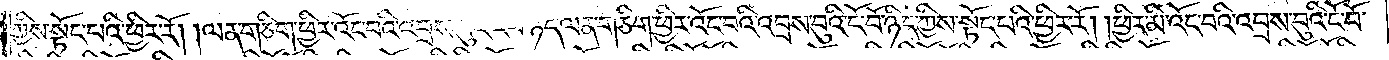ཀྱིས་སྟོང་པའི་ཕྱིར་རོ། །ལན་ཅིག་ཕྱིར་འོང་བའི་འབྲས་བུའི་ངོ་བོ་ཉིད་ལན་གཅིག་ཕྱིར་འོང་བའི་འབྲས་བུའི་ངོ་བོ་ཉིད་ཀྱིས་སྟོང་པའི་ཕྱིར་རོ། །ཕྱིར་མི་འོང་བའི་འབྲས་བུའི་ངོ་བོ་
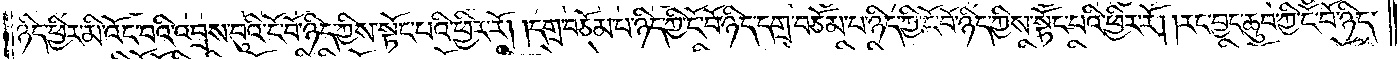ཉིད་ཕྱིར་མི་འོང་བའི་འབྲས་བུའི་ངོ་བོ་ཉིད་ཀྱིས་སྟོང་པའི་ཕྱིར་རོ། །དགྲ་བཅོམ་པ་ཉིད་ཀྱི་ངོ་བོ་ཉིད་དགྲ་བཅོམ་པ་ཉིད་ཀྱི་ངོ་བོ་ཉིད་ཀྱིས་སྟོང་པའི་ཕྱིར་རོ། །རང་བྱང་ཆུབ་ཀྱི་ངོ་བོ་ཉིད་
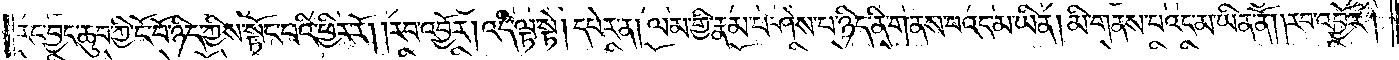རང་བྱང་ཆུབ་ཀྱི་ངོ་བོ་ཉིད་ཀྱིས་སྟོང་པའི་ཕྱིར་རོ། །རབ་འབྱོར། འདི་ལྟ་སྟེ། དཔེར་ན། ལམ་གྱི་རྣམ་པ་ཤེས་པ་ཉིད་ནི་གནས་པའང་མ་ཡིན། མི་གནས་པའང་མ་ཡིན་ནོ། །རབ་འབྱོར།
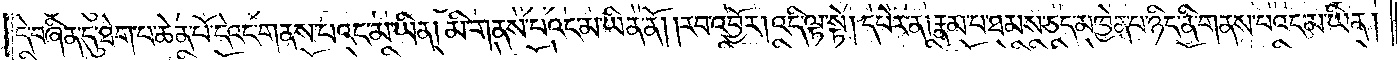དེ་བཞིན་དུ་ཐེག་པ་ཆེན་པོ་དེའང་གནས་པའང་མ་ཡིན། མི་གནས་པའང་མ་ཡིན་ནོ། །རབ་འབྱོར། འདི་ལྟ་སྟེ། དཔེར་ན། རྣམ་པ་ཐམས་ཅད་མཁྱེན་པ་ཉིད་ནི་གནས་པའང་མ་ཡིན།
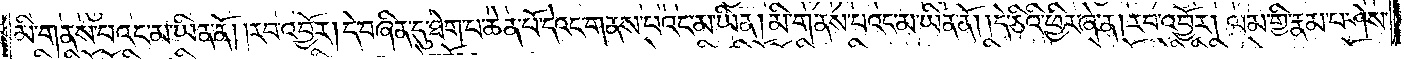མི་གནས་པའང་མ་ཡིན་ནོ། །རབ་འབྱོར། དེ་བཞིན་དུ་ཐེག་པ་ཆེན་པོ་དེའང་གནས་པའང་མ་ཡིན། མི་གནས་པའང་མ་ཡིན་ནོ། །དེ་ཅིའི་ཕྱིར་ཞེ་ན། རབ་འབྱོར། ལམ་གྱི་རྣམ་པ་ཤེས་
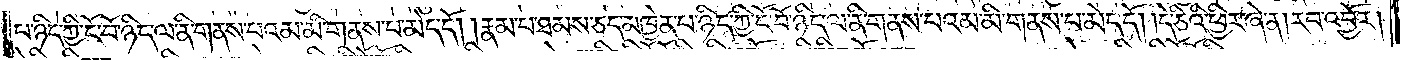པ་ཉིད་ཀྱི་ངོ་བོ་ཉིད་ལ་ནི་གནས་པའམ་མི་གནས་པ་མེད་དོ། །རྣམ་པ་ཐམས་ཅད་མཁྱེན་པ་ཉིད་ཀྱི་ངོ་བོ་ཉིད་ལ་ནི་གནས་པ་འམ་མི་གནས་པ་མེད་དོ། །དེ་ཅིའི་ཕྱིར་ཞེ་ན། རབ་འབྱོར།
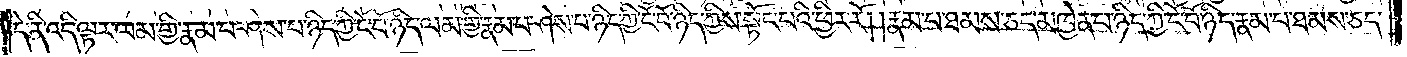དེ་ནི་འདི་ལྟར་ལམ་གྱི་རྣམ་པ་ཤེས་པ་ཉིད་ཀྱི་ངོ་བོ་ཉིད་ལམ་གྱི་རྣམ་པ་ཤེས་པ་ཉིད་ཀྱི་ངོ་བོ་ཉིད་ཀྱིས་སྟོང་པའི་ཕྱིར་རོ། །རྣམ་པ་ཐམས་ཅད་མཁྱེན་པ་ཉིད་ཀྱི་ངོ་བོ་ཉིད་རྣམ་པ་ཐམས་ཅད་
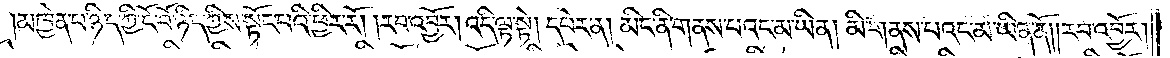མཁྱེན་པ་ཉིད་ཀྱི་ངོ་བོ་ཉིད་ཀྱིས་སྟོང་པའི་ཕྱིར་རོ། །རབ་འབྱོར། འདི་ལྟ་སྟེ། དཔེར་ན། མིང་ནི་གནས་པའང་མ་ཡིན། མི་གནས་པའང་མ་ཡིན་ནོ། །རབ་འབྱོར།
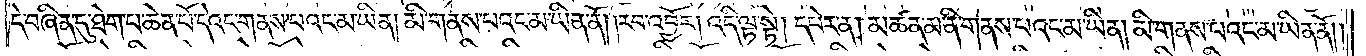དེ་བཞིན་དུ་ཐེག་པ་ཆེན་པོ་དེའང་གནས་པའང་མ་ཡིན། མི་གནས་པའང་མ་ཡིན་ནོ། །རབ་འབྱོར། འདི་ལྟ་སྟེ། དཔེར་ན། མཚན་མ་ནི་གནས་པའང་མ་ཡིན། མི་གནས་པའང་མ་ཡིན་ནོ། །
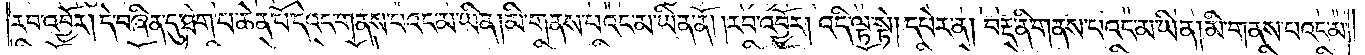རབ་འབྱོར། དེ་བཞིན་དུ་ཐེག་པ་ཆེན་པོ་དེའང་གནས་པའང་མ་ཡིན། མི་གནས་པའང་མ་ཡིན་ནོ། །རབ་འབྱོར། འདི་ལྟ་སྟེ། དཔེར་ན། བརྡ་ནི་གནས་པའང་མ་ཡིན། མི་གནས་པའང་མ་
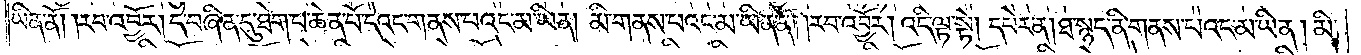ཡིན་ནོ། །རབ་འབྱོར། དེ་བཞིན་དུ་ཐེག་པ་ཆེན་པོ་དེའང་གནས་པའང་མ་ཡིན། མི་གནས་པའང་མ་ཡིན་ནོ། །རབ་འབྱོར། འདི་ལྟ་སྟེ། དཔེར་ན། ཐ་སྙད་ནི་གནས་པའང་མ་ཡིན། མི་
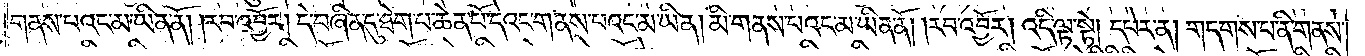གནས་པའང་མ་ཡིན་ནོ། །རབ་འབྱོར། དེ་བཞིན་དུ་ཐེག་པ་ཆེན་པོ་དེའང་གནས་པའང་མ་ཡིན། མི་གནས་པའང་མ་ཡིན་ནོ། རབ་འབྱོར། འདི་ལྟ་སྟེ། དཔེར་ན། གདགས་པ་ནི་གནས་
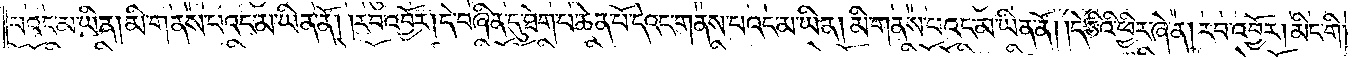པའང་མ་ཡིན། མི་གནས་པའང་མ་ཡིན་ནོ། །རབ་འབྱོར། དེ་བཞིན་དུ་ཐེག་པ་ཆེན་པོ་དེའང་གནས་པའང་མ་ཡིན། མི་གནས་པའང་མ་ཡིན་ནོ། །དེ་ཅིའི་ཕྱིར་ཞེ་ན། རབ་འབྱོར། མིང་གི་
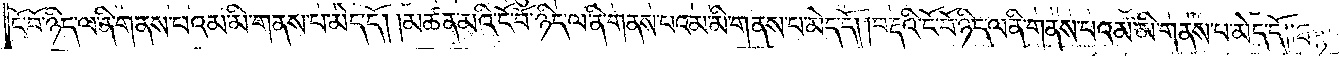ངོ་བོ་ཉིད་ལ་ནི་གནས་པ་འམ་མི་གནས་པ་མེད་དོ། །མཚན་མའི་ངོ་བོ་ཉིད་ལ་ནི་གནས་པ་འམ་མ་གནས་པ་མེད་དོ། །བརྡའི་ངོ་བོ་ཉོན་ལ་ནི་གནས་པ་འམ་མི་གནས་པ་མེད་དོ། །ཐ་སྙད་
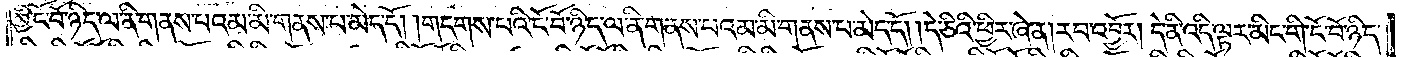ཀྱི་ངོ་བོ་ཉིད་ལ་ནི་གནས་པ་འམ་མི་གནས་པ་མེད་དོ། །གདགས་པའི་ངོ་བོ་ཉིད་ལ་ནི་གནས་པ་འམ་མི་གནས་པ་མེད་དོ། །དེ་ཅིའི་ཕྱིར་ཞེ་ན། རབ་འབྱོར། དེ་ནི་འདི་ལྟར་མིང་གི་ངོ་བོ་ཉིད་
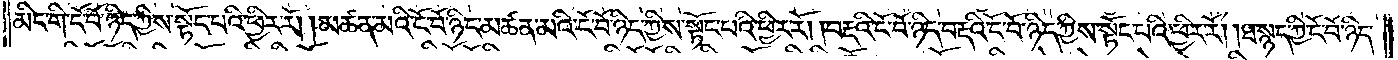མིང་གི་ངོ་བོ་ཉིད་ཀྱིས་སྟོང་པའི་ཕྱིར་རོ། །མཚན་མའི་ངོ་བོ་ཉིད་མཚན་མའི་ངོ་བོ་ཉིད་ཀྱིས་སྟོང་པའི་ཕྱིར་རོ། །བརྡའི་ངོ་བོ་ཉིད་བརྡའི་ངོ་བོ་ཉིད་ཀྱིས་སྟོང་པའི་ཕྱིར་རོ། །ཐ་སྙད་ཀྱི་ངོ་བོ་ཉིད་
